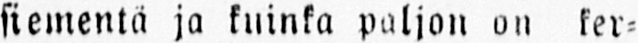siementä ja kuinka paljon on ker-
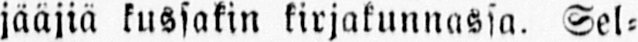jääjiä kussakin kirjakunnassa. Sel-
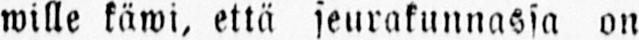wille käwi, että seurakunnassa on
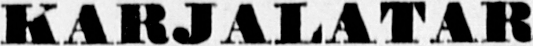KARJALATAR
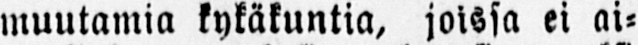muutamia kykäkuntia, joissa ei ai-
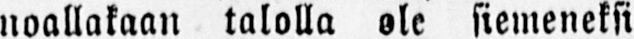noallakaan talolla ole siemeneksi
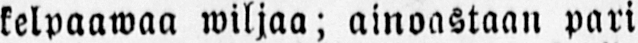kelpaawaa wiljaa; ainoastaan pari
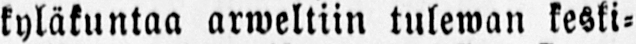kyläkuntaa arweltiin tulewan keski-
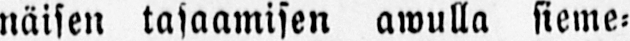näisen tasaamisen awulla sieme-
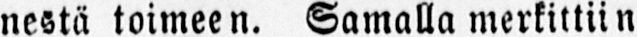nestä toimeen. Samalla merkittiin
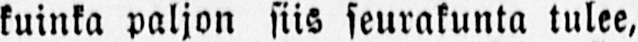kuinka paljon siis seurakunta tulee,
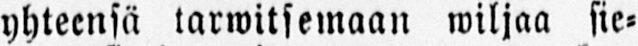yhteensä tarwitsemaan wiljaa sie-
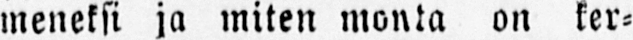meneksi ja miten monta on ker-
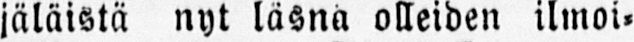jäläistä nyt läsnä olleiden ilmoi-
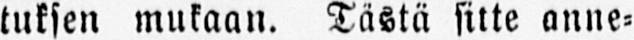tuksen mukaan. Tästä sitte anne-
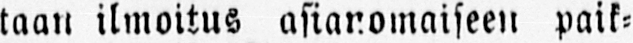taan ilmoitus asianomaiseen paik-
